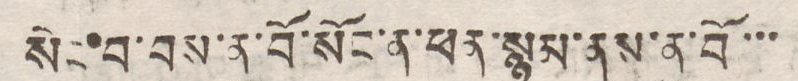སེང་བ་བས་ནུ་བོ་སོང་ན་ཕན་སྙམ་ནས་ནུ་བོ་་་
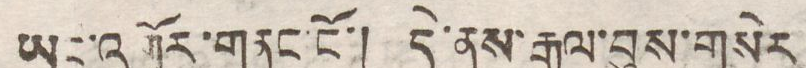ཡང་འགྲོར་གནང་ངོ་། དེ་ནས་རྒྱལ་བུས་གསེར
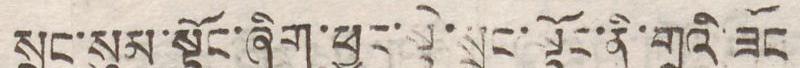སྲང་སུམ་སྟོང་ཞིག་ཕྱུར་སྟེ་སྲང་སྟོང་ནི་གྲུའི་ཟོང
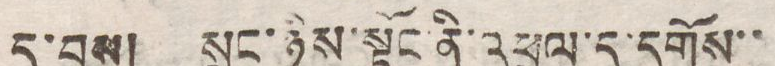དུ་བྱས། སྲང་ཉིས་སྟོང་ནི་འཕྲལ་དུ་དགོས་་
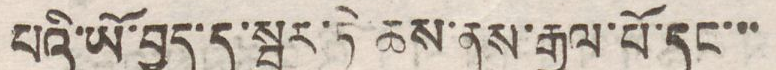པའི་ཡོ་བྱད་དུ་སྦྱར་ཏེ་ཆས་ནས་རྒྱལ་པོ་དང་་་
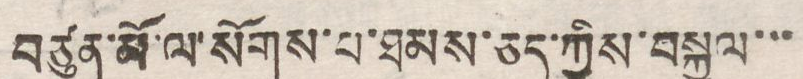བཙུན་མོ་ལ་སོགས་པ་ཐམས་ཅད་ཀྱིས་བསྐྱལ་་་
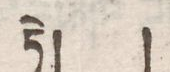ཏེ། །
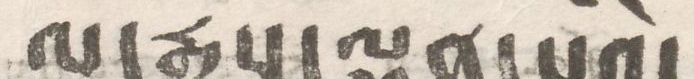ལོ་རྒྱུས་ལྡན་པའི་
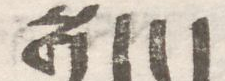སྒྲུང་།
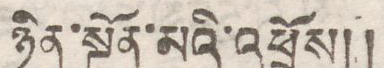ཉིན་སྔོན་མའི་འཕྲོས།།
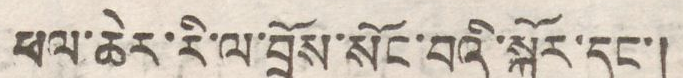ཕལ་ཆེར་རི་ལ་བྲོས་སོང་བའི་སྐོར་དང་།
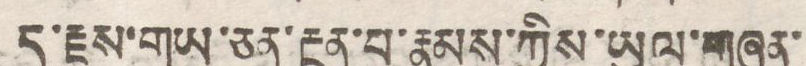ད་རྗས་གཡ་ཅན་རྔན་པ་རྣམས་ཀྱིས་ཡུལ་གཞན་
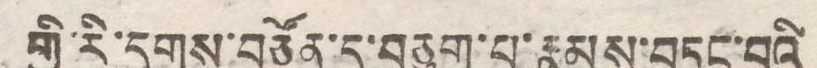གྱི་རི་དྭགས་བཙོན་དུ་བཅུག་པ་རྣམས་བཏང་བའི་
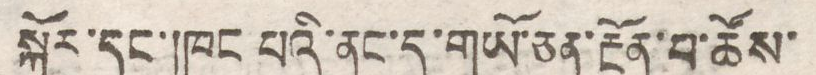སྐོར་དང་ཁང པའི་ནང་དུ་གཡོ་ཅན་རྔོན་བ་ཚོས་
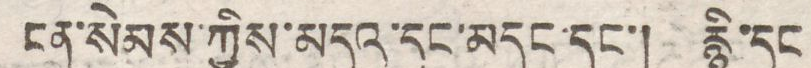ངན་སེམས་ཀྱིས་མདའ་དང་མདུན་དང་། རྙི་དང
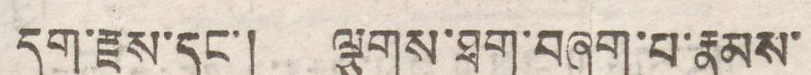དུག་རྗས་དང་། ལྕགས་ཐག་བཞག་པ་རྣམས་
